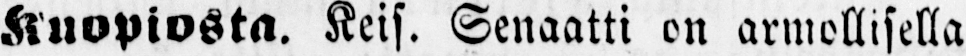Kuopiosta. Keis. Senaatti on armollisella
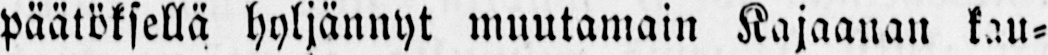päätöksellä hyljännyt muutamain Kajaanan kau-
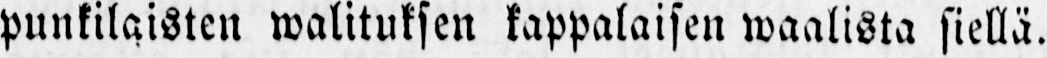punkilaisten walituksen kappalaisen waalista siellä.
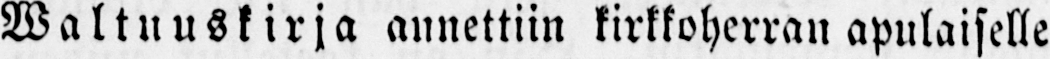Waltuuskirja annettiin kirkkoherran apulaiselle
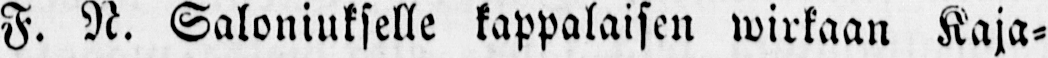F. N. Saloniukselle kappalaisen wirkaan Kaja-
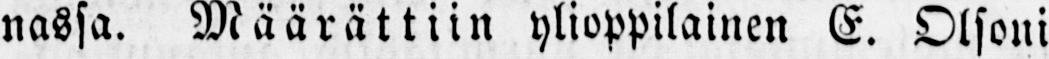nassa. Määrättiin ylioppilainen E. Otsoni
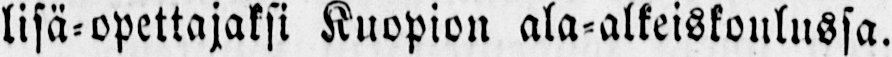lisä-opettajaksi Kuopion ala-alkeiskoulussa.
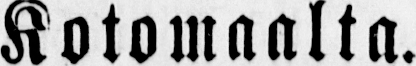Kotomaalta.
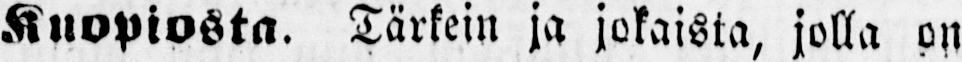Kuopiosta. Tärkein ja jokaista, jolla on
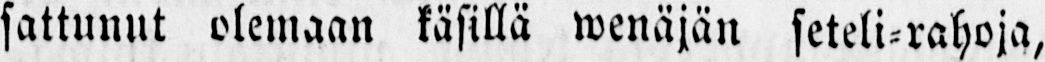sattunut olemaan käsillä wenäjän seteli-rahoja,
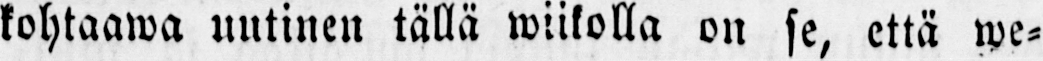kohtaawa uutinen tällä wiikolla on se, että we-
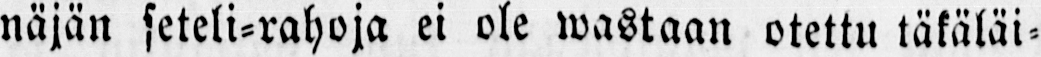näjän seteli-rahoja ei ole wastaan otettu täkäläi-
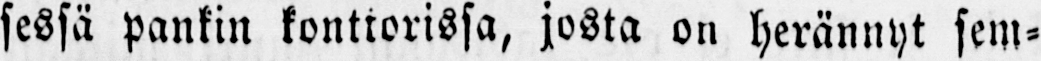sessä pankin konttorissa, josta on herännyt sem-
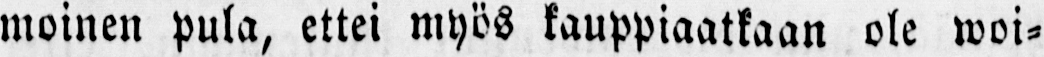moinen pula, ettei myös kauppiaatkaan ole woi-
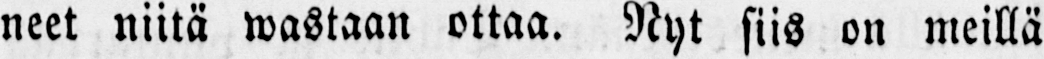neet niitä wastaan ottaa. Nyt siis on meillä
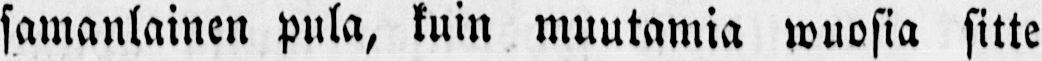samanlainen pula, kuin muutamia wuosia sitte
